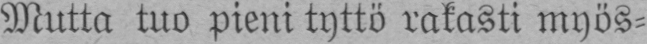Mutta tuo pieni tyttö rakasti myös-
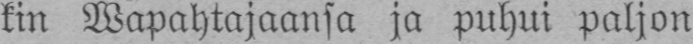kin Wapahtajaansa ja puhui paljon
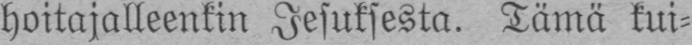hoitajalleenkin Jesuksesta. Tämä kui-
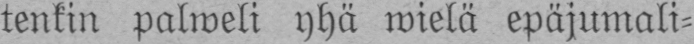tenkin palweli yhä wielä epäjumali-
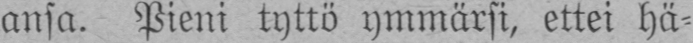ansa. Pieni tyttö ymmärsi, ettei hä-
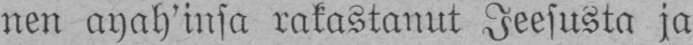nen ayah'insa rakastanut Jeesusta ja
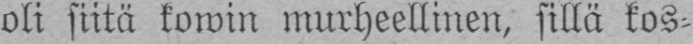oli siitä kowin murheellinen, sillä kos-
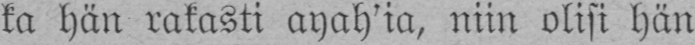ka hän rakasti ayah'ia, niin olisi hän
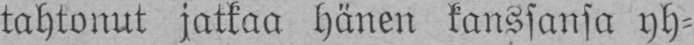tahtonut jatkaa hänen kanssansa yh-
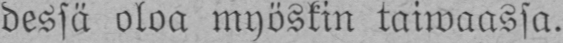dessä oloa myöskin taiwaassa.
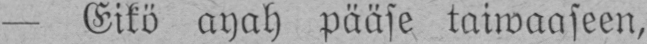— Eikö ayah pääse taiwaaseen,
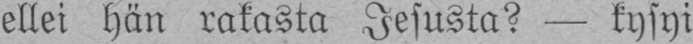ellei hän rakasta Jesusta? — kysyi
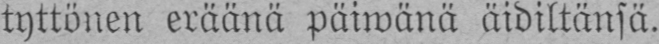tyttönen eräänä päiwänä äidiltänsä.
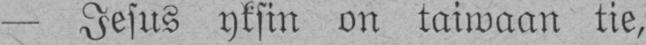— Jesus yksin on taiwaan tie,
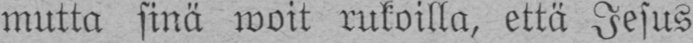mutta sinä woit rukoilla, että Jesus
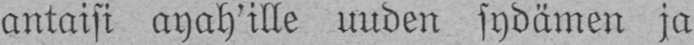antaisi ayah'ille uuden sydämen ja
